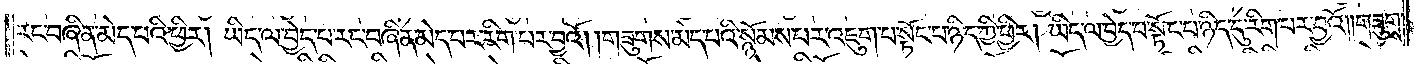རང་བཞིན་མེད་པའི་ཕྱིར། ཡིད་ལ་བྱེད་པ་རང་བཞིན་མེད་པར་རིག་པར་བྱའོ། །གཟུགས་མེད་པའི་སྙོམས་པར་འཇུག་པ་སྟོང་པ་ཉིད་ཀྱི་ཕྱིར། ཡིད་ལ་བྱེད་པ་སྟོང་པ་ཉིད་དུ་རིག་པར་བྱའོ། །གཟུགས་
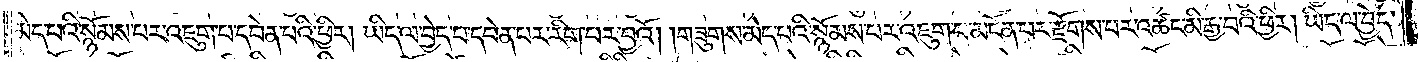མེད་པའི་སྙོམས་པར་འཇུག་པ་དབེན་པའི་ཕྱིར། ཡིད་ལ་བྱེད་པ་དབེན་པར་རིག་པར་བྱའོ། །གཟུགས་མེད་པའི་སྙོམས་པར་འཇུག་པ་མངོན་པར་རྫོགས་པར་འཚང་མི་རྒྱ་བའི་ཕྱིར། ཡིད་ལ་བྱེད་
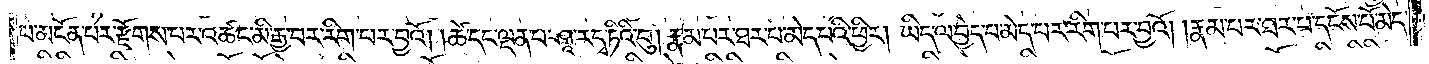པ་མངོན་པར་རྫོགས་པར་འཚང་མི་རྒྱ་བར་རིག་པར་བྱའོ། །ཚེ་དང་ལྡན་པ་ཤཱ་ར་དྭ་ཏིའི་བུ། རྣམ་པར་ཐར་པ་མེད་པའི་ཕྱིར། ཡིད་ལ་བྱེད་པ་མེད་པར་རིག་པར་བྱའོ། །རྣམ་པར་ཐར་པ་དངོས་པོ་མེད་
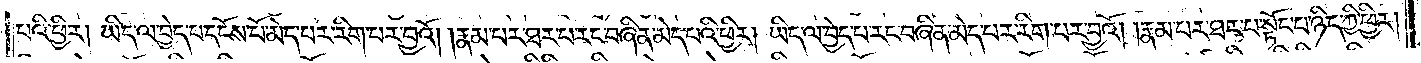པའི་ཕྱིར། ཡིད་ལ་བྱེད་པ་དངོས་པོ་མེད་པར་རིག་པར་བྱའོ། །རྣམ་པར་ཐར་པ་རང་བཞིན་མེད་པའི་ཕྱིར། ཡིད་ལ་བྱེད་པ་རང་བཞིན་མེད་པར་རིག་པར་བྱའོ། །རྣམ་པར་ཐར་པ་སྟོང་པ་ཉིད་ཀྱི་ཕྱིར།
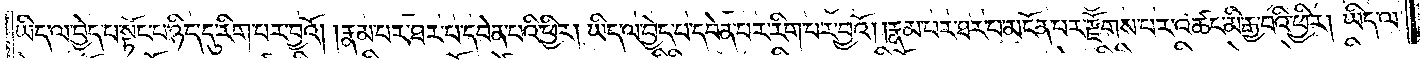ཡིད་ལ་བྱེད་པ་སྟོང་པ་ཉིད་དུ་རིག་པར་བྱའོ། །རྣམ་པར་ཐར་པ་དབེན་པའི་ཕྱིར། ཡིད་ལ་བྱེད་པ་དབེན་པར་རིག་པར་བྱའོ། །རྣམ་པར་ཐར་པ་མངོན་པར་རྫོགས་པར་འཚང་མི་རྒྱ་བའི་ཕྱིར། ཡིད་ལ་
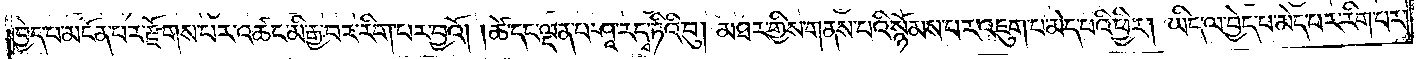བྱེད་པ་མངོན་པར་རྫོགས་པར་འཚང་མི་རྒྱ་བར་རིག་པར་བྱའོ། །ཚེ་དང་ལྡན་པ་ཤཱ་ར་དྭ་ཏིའི་བུ། མཐར་གྱིས་གནས་པའི་སྙོམས་པར་འཇུག་པ་མེད་པའི་ཕྱིར། ཡིད་ལ་བྱེད་པ་མེད་པར་རིག་པར་
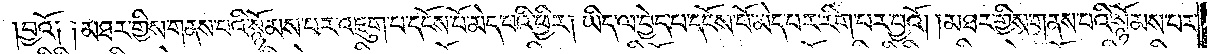བྱའོ༏ ༏མཐར་གྱིས་གནས་པའི་སྙོམས་པར་འཇུག་པ་དངོས་པོ་མེད་པའི་ཕྱིར། ཡིད་ལ་བྱེད་པ་དངོས་པོ་མེད་པར་རིག་པར་བྱའོ། ། མཐར་གྱིས་གནས་པའི་སྙོམས་པར་
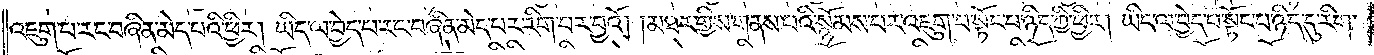འཇུག་པ་རང་བཞིན་མེད་པའི་ཕྱིར། ཡིད་ལ་བྱེད་པ་རང་བཞིན་མེད་པར་རིག་པར་བྱའོ། །མཐར་གྱིས་གནས་པའི་སྙོམས་པར་འཇུག་པ་སྟོང་པ་ཉིད་ཀྱི་ཕྱིར། ཡིད་ལ་བྱེད་པ་སྟོང་པ་ཉིད་དུ་རིག་
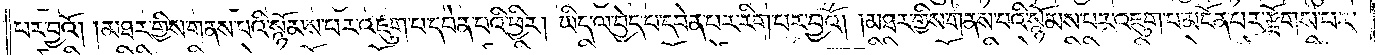པར་བྱའོ། །མཐར་གྱིས་གནས་པའི་སྙོམས་པར་འཇུག་པ་དབེན་པའི་ཕྱིར། ཡིད་ལ་བྱེད་པ་དབེན་པར་རིག་པར་བྱའོ། །མཐར་གྱིས་གནས་པའི་སྙོམས་པར་འཇུག་པ་མངོན་པར་རྫོགས་པར་
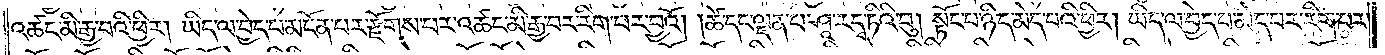འཚང་མི་རྒྱ་བའི་ཕྱིར། ཡིད་ལ་བྱེད་པ་མངོན་པར་རྫོགས་པར་འཚང་མི་རྒྱ་བར་རིག་པར་བྱའོ། །ཚེ་དང་ལྡན་པ་ཤཱ་ར་དྭ་ཏིའི་བུ། སྟོང་པ་ཉིད་མེད་པའི་ཕྱིར། ཡིད་ལ་བྱེད་པ་མེད་པར་རིག་པར་
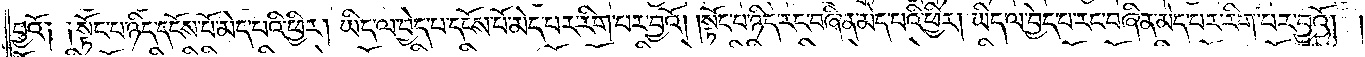བྱའོ༏ ༏སྟོང་པ་ཉིད་དངོས་པོ་མེད་པའི་ཕྱིར། ཡིད་ལ་བྱེད་པ་དངོས་པོ་མེད་པར་རིག་པར་བྱའོ། །སྟོང་པ་ཉིད་རང་བཞིན་མེད་པའི་ཕྱིར། ཡིད་ལ་བྱེད་པ་རང་བཞིན་མེད་པར་རིག་པར་བྱའོ། །
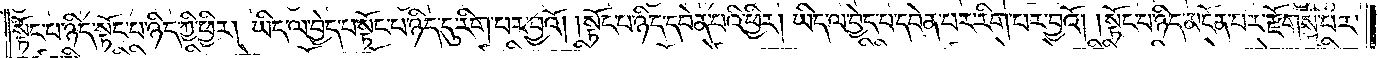སྟོང་པ་ཉིད་སྟོང་པ་ཉིད་ཀྱི་ཕྱིར། ཡིད་ལ་བྱེད་པ་སྟོང་པ་ཉིད་དུ་རིག་པར་བྱའོ། །སྟོང་པ་ཉིད་དབེན་པའི་ཕྱིར། ཡིད་ལ་བྱེད་པ་དབེན་པར་རིག་པར་བྱའོ། །སྟོང་པ་ཉིད་མངོན་པར་རྫོགས་པར་
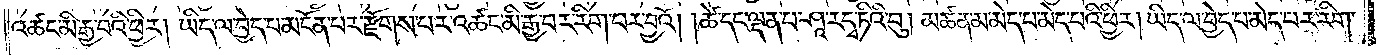འཚང་མི་རྒྱ་བའི་ཕྱིར། ཡིད་ལ་བྱེད་པ་མངོན་པར་རྫོགས་པར་འཚང་མི་རྒྱ་བར་རིག་པར་བྱའོ། །ཚེ་དང་ལྡན་པ་ཤཱ་ར་དྭ་ཏིའི་བུ། མཚན་མ་མེད་པ་མེད་པའི་ཕྱིར། ཡིད་ལ་བྱེད་པ་མེད་པར་རིག་
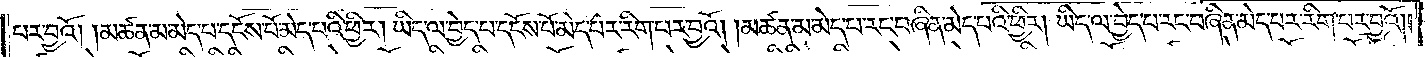པར་བྱའོ། །མཚན་མ་མེད་པ་དངོས་པོ་མེད་པའི་ཕྱིར། ཡིད་ལ་བྱེད་པ་དངོས་པོ་མེད་པར་རིག་པར་བྱའོ། །མཚན་མ་མེད་པ་རང་བཞིན་མེད་པའི་ཕྱིར། ཡིད་ལ་བྱེད་པ་རང་བཞིན་མེད་པར་རིག་པར་བྱའོ།
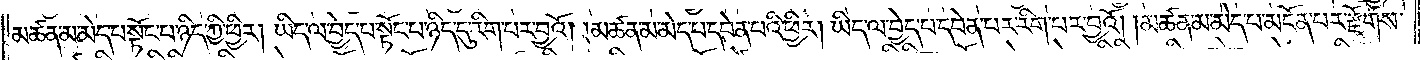མཚན་མ་མེད་པ་སྟོང་པ་ཉིད་ཀྱི་ཕྱིར། ཡིད་ལ་བྱེད་པ་སྟོང་པ་ཉིད་དུ་རིག་པར་བྱའོ། །མཚན་མ་མེད་པ་དབེན་པའི་ཕྱིར། ཡིད་ལ་བྱེད་པ་དབེན་པར་རིག་པར་བྱའོ། །མཚན་མ་མེད་པ་མངོན་པར་རྫོགས་
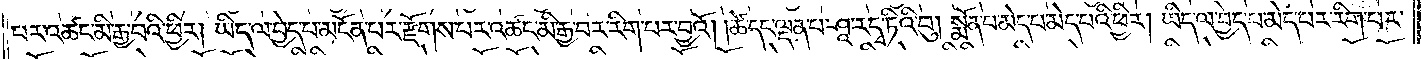པར་འཚང་མི་རྒྱ་བའི་ཕྱིར། ཡིད་ལ་བྱེད་པ་མངོན་པར་རྫོགས་པར་འཚང་མི་རྒྱ་བར་རིག་པར་བྱའོ། །ཚེ་དང་ལྡན་པ་ཤཱ་ར་དྭ་ཏིའི་བུ། སྨོན་པ་མེད་པ་མེད་པའི་ཕྱིར། ཡིད་ལ་བྱེད་པ་མེད་པར་རིག་པར་
